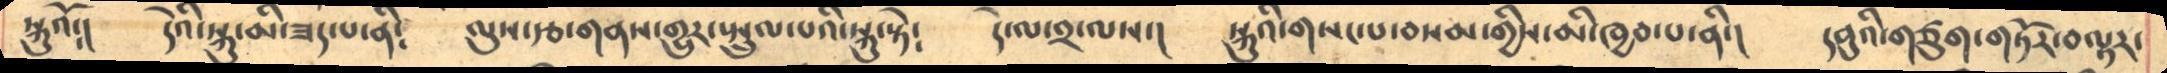སྐུའོ༴།       དེའི་སྐུ་མི་ཟད་པ་ནི༴     ལུས་རྩ་གནས་གྱུར་པའི་སྐུ་སྟེ༴    དེ་ལ་༢་ལས་།   སྐུའི་གསང་པ་བསམ་གྱིས་མི་ཁྱབ་པ་ནི་།     དབུའི་གཙུག་གཏོར་བལྟར་
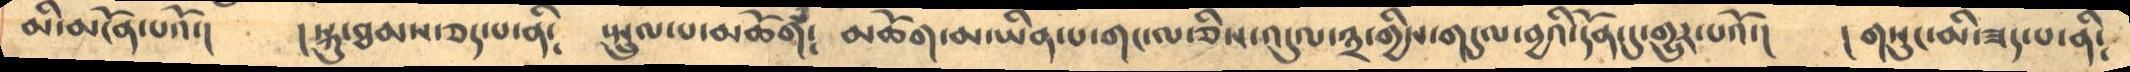མི་མངོན་པའོ་།     ། སྐུ་ཐམས་ཅད་པ་ནི༴     སྤྲུལ་པ་མཆོག༴     མཆོག་མ་ཡིན་པ་གང་ལ་ཅིས་འདུལ་༣་གྱིས་གདུལ་བྱའི་དོན་དུ་གྱུར་པའོ་།   །གསུང་མི་ཟད་པ་ནི༴
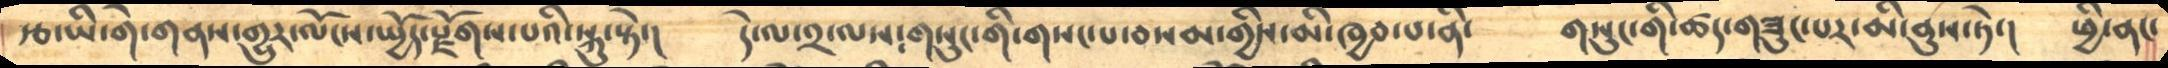རྩ་ཡི་གེ་གནས་གྱུར་ལོངས་སྤྱོད་རྫོགས་པའི་སྐུ་སྟེ་།     དེ་ལ་༢་ལས༴གསུང་གི་གསང་པ་བསམ་གྱིས་མི་ཁྱབ་པ་ནི་    གསུང་གི་ཚད་གཟུང་པར་མི་ནུས་ཏེ་།   ཕྱི་ནང་
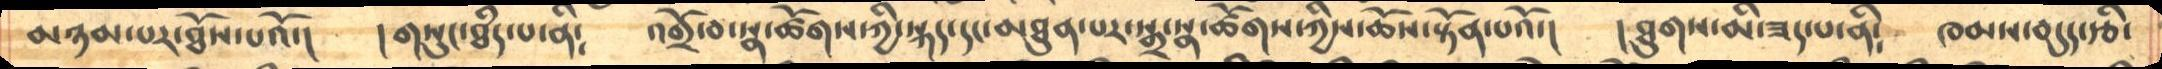མཉམ་པར་ཐོས་པའོ་།    །གསུང་ཐཾད་པ་ནི༴    འགྲོ་བ་སྣ་ཚོགས་ཀྱི་སྐད་དང་མཐུན་པར་སྒྲ་སྣ་ཚོགས་ཀྱིས་ཆོས་སྟོན་པའོ་།   །ཐུགས་མི་ཟད་པ་ནི༴    ཁམས་བདུད་རྩི་
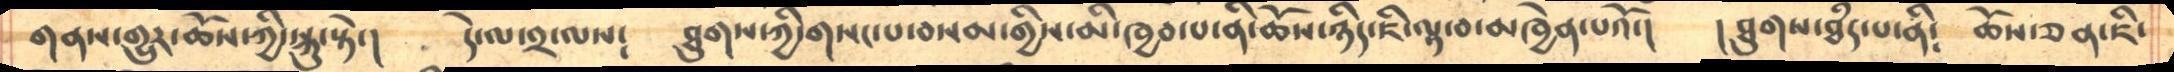གནས་གྱུར་ཆོས་ཀྱི་སྐུ་སྟེ་།     དེ་ལ་༢་ལས༴      ཐུགས་ཀྱི་གསང་པ་བསམ་གྱིས་མི་ཁྱབ་པ་ནི་ཆོས་ཉིད་ཇི་ལྟ་བ་མཁྱེན་པའོ་།   །ཐུགས་ཐཾད་པ་ནི༴    ཆོས་ཅན་ཇི་
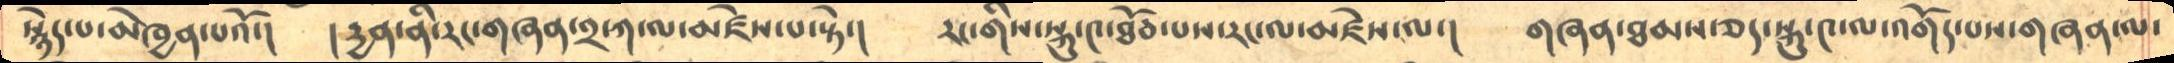སྙེད་པ་མཁྱེན་པའོ་།     ། དྱན་ནི་རང་གཞན་༢་ཀ་ལ་མཛེས་པ་སྟེ་།      རང་གིས་སྐུ་༤་ཐོབ་པས་རང་ལ་མཛེས་ལ་།    གཞན་ཐམས་ཅད་སྐུ་༤་ལ་འགོད་པས་གཞན་ལ་
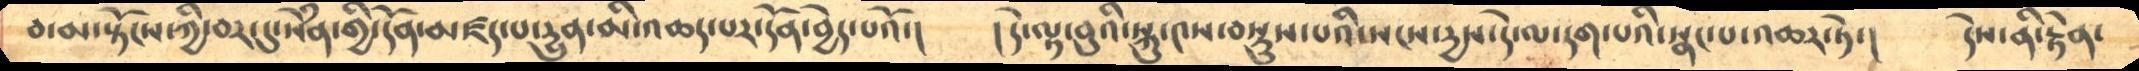བ་མ་སྟོངས་ཀྱི་བར་དུ་སེཾན་གྱི་དོན་མཛད་པ་དྱུན་མི་འཆད་པར་དོན་བྱེད་པའོ་།    །དེ་ལྟ་བུའི་སྐུ་༤ས་བསྟུས་པའི་སངས་དྱས་དེ་ལ་རག་པའི་སྣང་པ་འཆར་ཏེ་།    དེས་ནི་རྟེན་
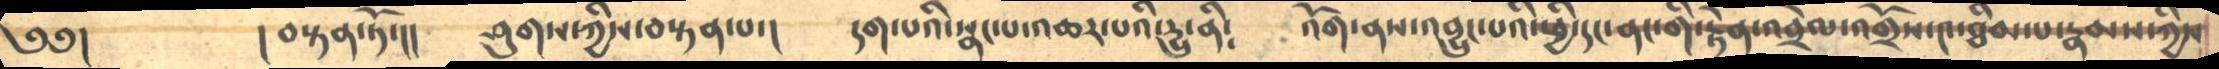༄༅།        ། བསྟན་ཏོ་།།      ཤུགས་ཀྱིས་བསྟན་པ་།     དག་པའི་སྣང་པ་འཆར་པའི་དྱུ་ནི༴     འོག་ནས་འབྱུང་པའི་ཕྱི་དང་ནང་གི་རྟེན་།བྲེལ་འགྲོས་༤་ཐིམ་པ་རྣམས་ཀྱིས
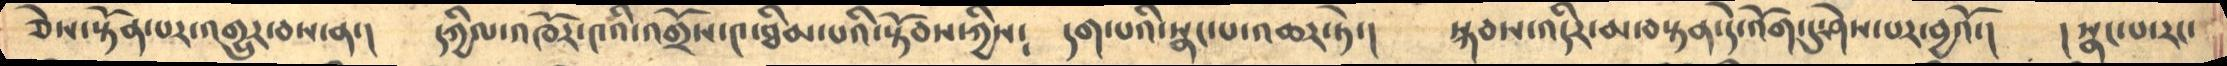ཅེས་སྟོན་པར་འགྱུར་བས་ན་།    དཀྱིལ་འཁོར་༤འི་འགྲོས་༤་ཐིམ་པའི་སྟོབས་ཀྱིས༴     དག་པའི་སྣང་པ་འཆར་ཏེ་།      སྐབས་འདིར་མ་བསྟན་དེ་འོག་དུ་ཤེས་པར་བྱའོ་།   །སྣང་པ་རང་
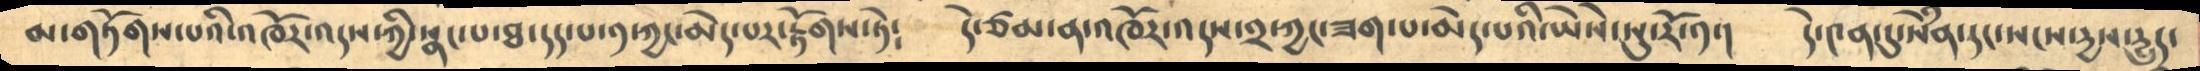མ་གཏོགས་པའི་འཁོར་འདས་ཀྱི་སྣང་པ་ཐ་དད་པ་༡་ཀྱང་མེད་པར་རྟོགས་ཏེ༴        དེ་ཙམ་ན་འཁོར་འདས་༢་ཀྱང་ཟག་པ་མེད་པའི་ཡཻས་སུ་རོ་༡་།     དེ་༤ན་དུ་སེཾན་རང་སངས་དྱས་དྱུད་
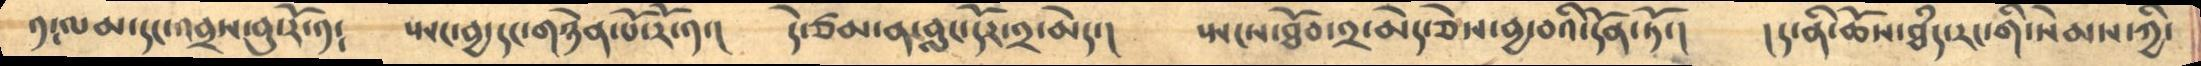༡་ལམ་དང་འབྲས་བུ་རོ་༡༴      སྤང་བྱ་དང་གཉེན་པོ་རོ་༡་།     དེ་ཙམ་ན་བླང་དོར་༢་མེད་།    སྤངས་ཐོབ་༢་མེད་ཅེས་བྱ་བའི་དོན་ཏོ་།    །ད་ནི་ཆོས་ཐཾད་རང་གི་སེམས་ཀྱི་
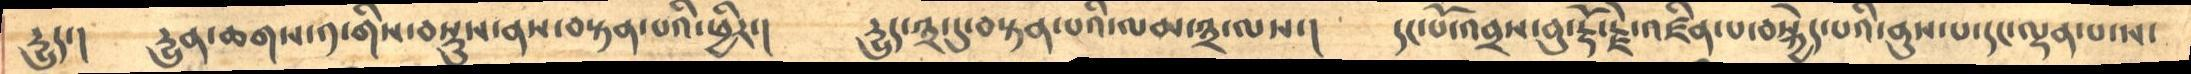དྱུད་།       དྱུན་ཆགས་༡་གིས་བསྡུས་ནས་བསྟན་པའི་ཕྱིར་།        དྱུད་༣་དུ་བསྟན་པའི་ལམ་༣་ལས་།      དང་པོ་འབྲས་བུ་རྡོ་རྗེ་འཛིན་པ་བསྐྱེད་པའི་ནུས་པ་དང་ལྡན་པ་ས་
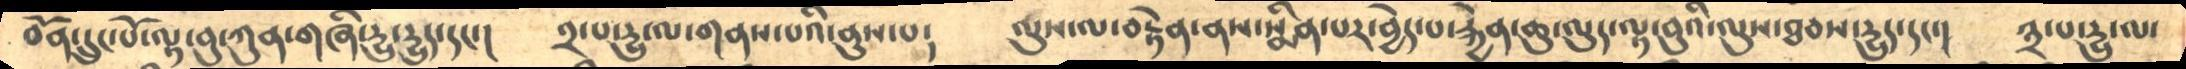བོན་དྲུང་པོ་ལྟ་བུ་ཀུན་གཞི་དྱུ་དྱུད་དང་།       ༢་པ་དྱུ་ལ་གནས་པའི་ནུས་པ༴     ལུས་ལ་བརྟེན་ནས་སྨིན་པར་བྱེད་པ་རྐྱེན་ཆུ་ལུད་ལྟ་བུའི་ལུས་ཐབས་དྱུད་དང་།    ༣་པ་དྱུ་ལ་
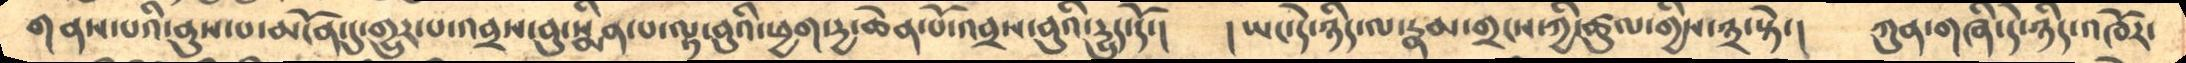གནས་པའི་ནུས་པ་མངོན་དུ་གྱུར་པ་འབྲས་བུ་སྨིན་པ་ལྟ་བུའི་ཕྱག་དྱ་ཆེན་པོ་འབྲས་བུའི་དྱུད་དོ་།    །ཡང་དེ་ཉིད་ལ་རྣམ་གྲངས་ཀྱི་ཚུལ་གྱིས་༣་སྟེ་།    ཀུན་གཞི་དེ་ཉིད་འཁོར་
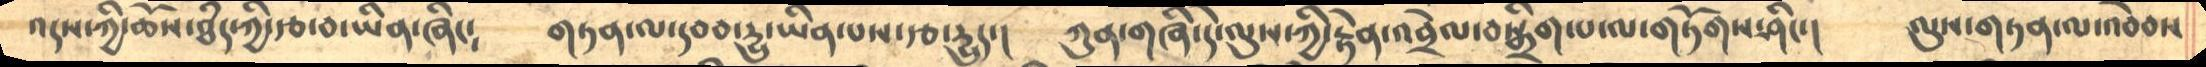འདས་ཀྱི་ཆོས་ཐཾད་ཀྱི་རྩ་བ་ཡིན་ཞིང༴      གཏན་ལ་དབབ་དྱུ་ཡིན་པས་རྩ་དྱུད་།      ཀུན་གཞི་དེ་ལུསཀྱི་རྟེན་འབྲེལ་བསྒྲིག་པ་ལ་གཏོགས་ཤིང་།    ལུས་གཏན་ལ་འབེབས
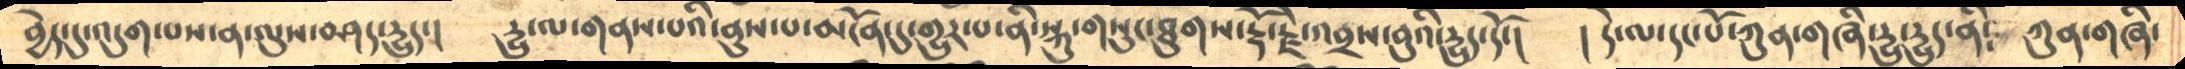བྱེད་དུ་འདུག་པས་ན་ལུས་བཤད་དྱུད་།      དྱུ་ལ་གནས་པའི་ནུས་པ་མངོན་དུ་གྱུར་པ་ནི་སྐུ་གསུང་ཐུགས་རྡོ་རྗེ་འབྲས་བུའི་དྱུད་དོ་།     །དེ་ལ་དང་པོ་ཀུན་གཞི་དྱུ་དྱུད་ནི༴   ཀུན་གཞི་
